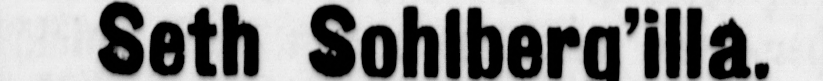Seth Sohlberg'illa.
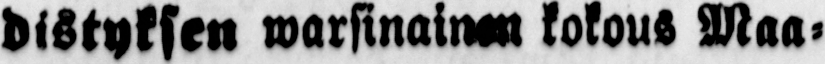distyksen warsinainen kokous Maa-
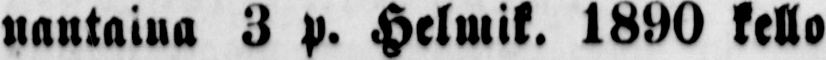nantaiua 3 p. Helmik. 1890 kello
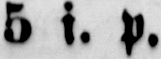5 i. p.
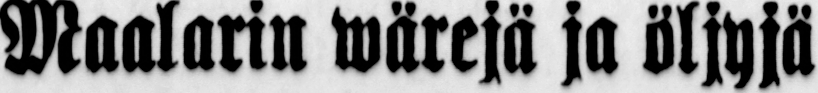Maalarin wärejä ja öljyjä
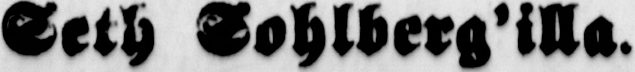Seth Sohlberg'illa.
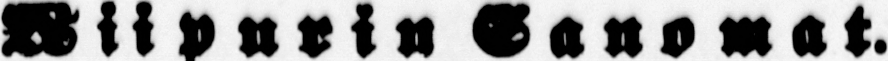Wiiporin Sanowat.
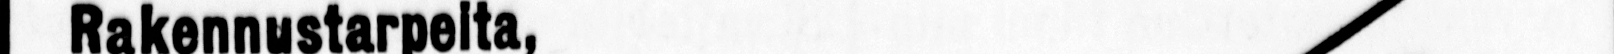Rakennustarpeita,
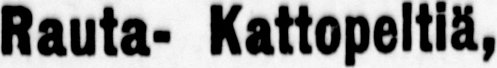Rauta- Kattopeltiä,
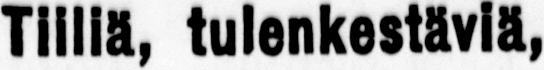Tiiliä, tulenkestäviä,
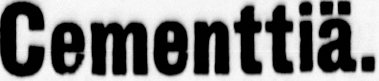Cemanttiä.
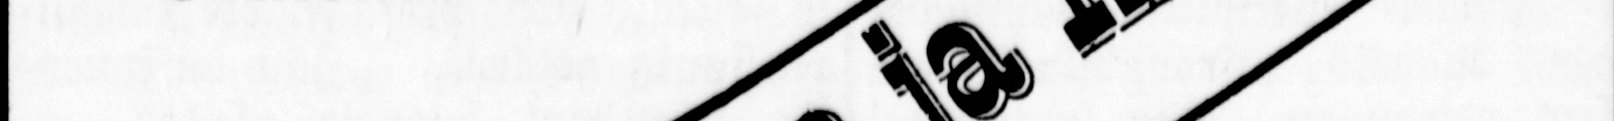Starckjohann ja kumpp.
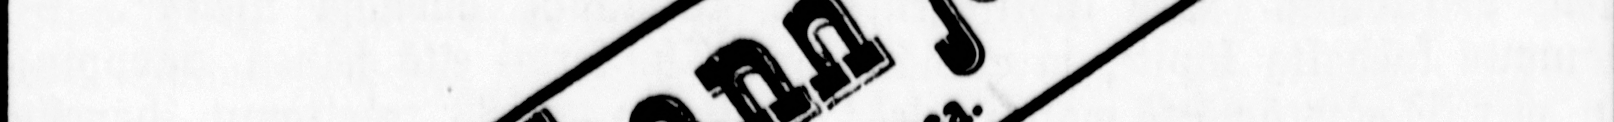Wiipurissa.
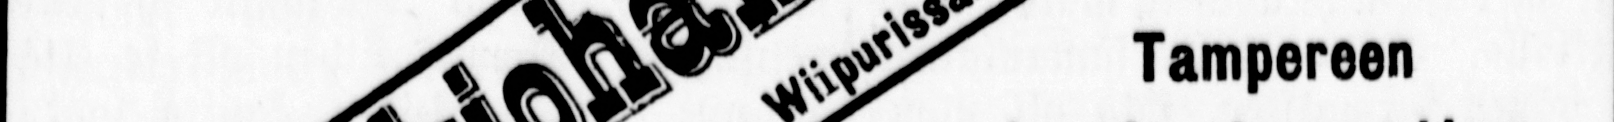Tampereen
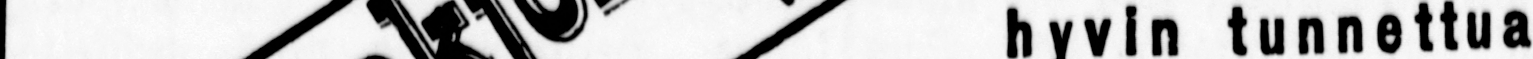hyvin tunnettua
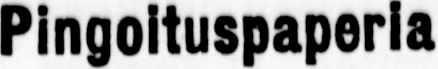Pingoituspaperia
